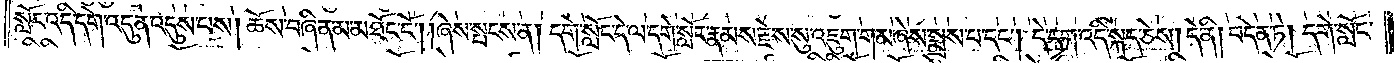སློང་འདི་དགེ་འདུན་འདུས་པས། ཆོས་བཞིན་མ་མཐོང་ངོ༌། །ཞེས་སྤངས་ན། དགེ་སློང་དེ་ལ་དགེ་སློང་རྣམས་རྗེས་སུ་འཇུག་གམ་ཞེས་སྨྲས་པ་དང༌། དེ་དག་འདི་སྐད་ཅེས། དེ་ནི། བདེན་ཏེ། དགེ་སློང་
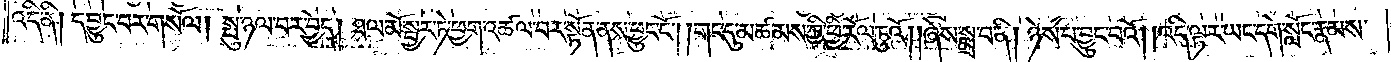འདི་ནི། དབྱུང་བར་གསོལ། སྤུ་ཉལ་བར་བྱེད། ཐལ་མོ་སྦྱར་ཏེ་ཕྱག་འཚལ་བར་སྟོན་ནས་ཕྱུང་ངོ༌། །གང་དུ་མཚམས་ཀྱི་ཕྱི་རོལ་ཏུའོ། །ཞེས་སྨྲ་བ་ནི། ཉེས་པ་བྱུང་བའོ། །འདི་ལྟར་ཡང་དགེ་སློང་རྣམས་
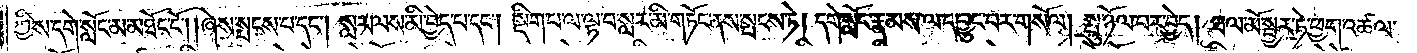ཀྱིས་དགེ་སློང་མ་མཐོང་ངོ༌། །ཞེས་སྤངས་པ་དང༌། སླར་ལས་མི་བྱེད་པ་དང༌། སྡིག་པ་ལ་ལྟ་བ་སླར་མི་གཏོང་ནས་སྤངས་ཏེ། དགེ་སློང་རྣམས་ལ་དབྱུང་བར་གསོལ། སྤུ་ཉོལ་བར་བྱེད། ཐལ་མོ་སྦྱར་ཏེ་ཕྱག་འཚལ་
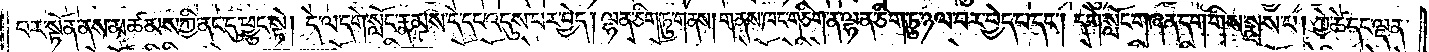བར་སྟོན་ནས་མཚམས་ཀྱི་ནང་དུ་ཕྱུང་སྟེ། དེ་ལ་དགེ་སློང་རྣམས་དེ་དང་འདུས་པར་བྱེད། ལྷན་ཅིག་ཏུ་གནས། གནས་ཁང་གཅིག་ན་ལྷན་ཅིག་ཏུ་ཉལ་བར་བྱེད་པ་དང༌། དགེ་སློང་གཞན་དག་གིས་སྨྲས་པ། ཀྱེ་ཚེ་དང་ལྡན་
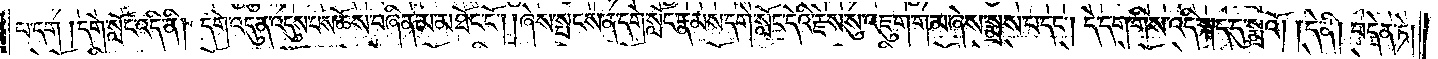པ་དག །དགེ་སློང་འདི་ནི། དགེ་འདུན་འདུས་པས་ཆོས་བཞིན་མ་མཐོང་ངོ༌། །ཞེས་སྤངས་ན་དགེ་སློང་རྣམས་དགེ་སློང་དེའི་རྗེས་སུ་འཇུག་གམ་ཞེས་སྨྲས་པ་དང༌། དེ་དག་གིས་འདི་སྐད་དུ་སྨྲའོ། །དེ་ནི། བདེན་ཏེ།
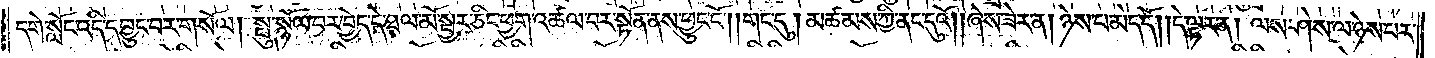དགེ་སློང་འདི་དབྱུང་བར་གསོལ། སྤུ་སྙོལ་བར་བྱེད་དེ་ཐལ་མོ་སྦྱར་ཅིང་ཕྱག་འཚལ་བར་སྟོན་ནས་ཕྱུང་ངོ༌། །གང་དུ། མཚམས་ཀྱི་ནང་དུའོ། །ཞེས་ཟེར་ན། ཉེས་པ་མེད་དོ། །དེ་ལྟར་ན། ལས་ཤེས་ལ་ཉེས་པར་
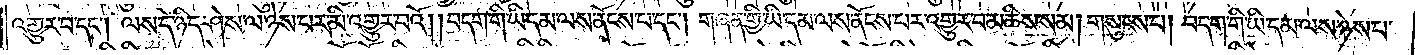འགྱུར་པ་དང༌། ལས་དེ་ཉིད་ཤེས་ལ་ཉེས་པར་མི་འགྱུར་བའོ། །བདག་གི་ཡི་དམ་ལས་ནོངས་པ་དང༌། གཞན་གྱི་ཡི་དམ་ལས་ནོངས་པར་འགྱུར་བ་མཆིས་སམ། གསུངས་པ། བདག་གི་ཡི་དམ་ལས་ཉེས་པ་
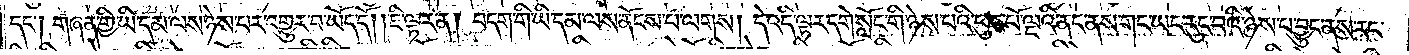དང༌། གཞན་གྱི་ཡི་དམ་ལས་ཉེས་པར་འགྱུར་པ་ཡོད་དོ། །ཇི་ལྟར་ན། བདག་གི་ཡི་དམ་ལས་ནོངས་པ་ལགས། དེ་འདི་ལྟར་དགེ་སློང་གི་ཉེས་པའི་ཕུང་པོ་ལྔའི་ནང་ནས་གང་ཡང་རུང་བའི་ཉེས་པ་བྱུང་ནས་རང་
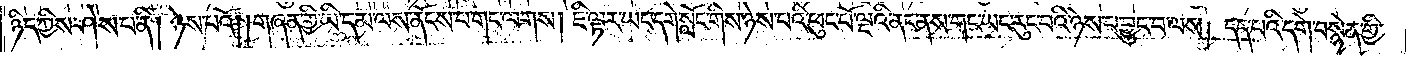ཉིད་ཀྱིས་ཤེས་པ་ནི། ཉེས་པའོ། །གཞན་གྱི་ཡི་དམ་ལས་ནོངས་པ་གང་ལགས། ཇི་ལྟར་ཡང་དགེ་སློང་གིས་ཉེས་པའི་ཕུང་པོ་ལྔའི་ནང་ནས་གང་ཡང་རུང་བའི་ཉེས་པ་བྱུང་བ་ལས། དད་པའི་དགེ་བསྙེན་གྱི་
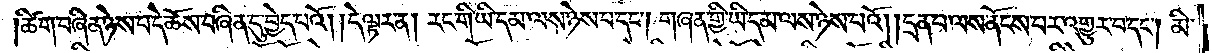ཚིག་བཞིན་ཉེས་པ་དེ་ཆོས་བཞིན་དུ་བྱེད་པའོ། །དེ་ལྟར་ན། རང་གི་ཡི་དམ་ལས་ཉེས་པ་དང༌། གཞན་གྱི་ཡི་དམ་ལས་ཉེས་པའོ། །དྲན་པ་ལས་ནོངས་པར་འགྱུར་བ་དང༌། མི་
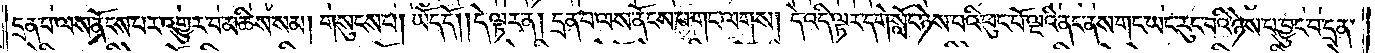དྲན་པ་ལས་ནོངས་པར་འགྱུར་བ་མཆིས་སམ། གསུངས་པ། ཡོད་དེ། །དེ་ལྟར་ན། དྲན་བ་ལས་ནོངས་པ་གང་ལགས། དེ་འདི་ལྟར་དགེ་སློང་ཉེས་པའི་ཕུང་པོ་ལྔའི་ནང་ནས་གང་ཡང་རུང་བའི་ཉེས་པ་བྱུང་བ་དྲན་
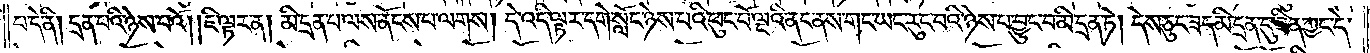པ་དེ་ནི། དྲན་པའི་ཉེས་པའོ། །ཇི་ལྟར་ན། མི་དྲན་པ་ལས་ནོངས་པ་ལགས། དེ་འདི་ལྟར་དགེ་སློང་ཉེས་པའི་ཕུང་པོ་ལྔའི་ནང་ནས་གང་ཡང་རུང་བའི་ཉེས་པ་བྱུང་བ་མི་དྲན་ཏེ། དེས་ཅུང་ཟད་མི་དྲན་དུ་ཟིན་ཀྱང་དེ་
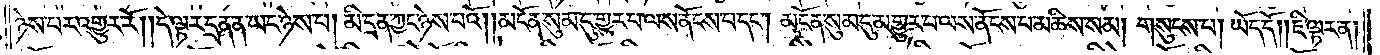ཉེས་པར་འགྱུར་རོ། །དེ་ལྟར་དྲན་ན་ཡང་ཉེས་པ། མི་དྲན་ཀྱང་ཉེས་པའོ། །མངོན་སུམ་དུ་གྱུར་པ་ལས་ནོངས་པ་དང༌། མངོན་སུམ་དུ་མ་གྱུར་པ་ལས་ནོངས་པ་མཆིས་སམ། གསུངས་པ། ཡོད་དོ། །ཇི་ལྟར་ན།
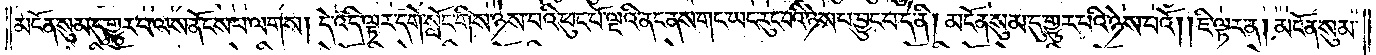མངོན་སུམ་དུ་གྱུར་པ་ལས་ནོངས་པ་ལགས། དེ་འདི་ལྟར་དགེ་སློང་གིས་ཉེས་པའི་ཕུང་པོ་ལྔའི་ནང་ནས་གང་ཡང་རུང་བའི་ཉེས་པ་བྱུང་བ་དེ་ནི། མངོན་སུམ་དུ་གྱུར་པའི་ཉེས་པའོ། །ཇི་ལྟར་ན། མངོན་སུམ་
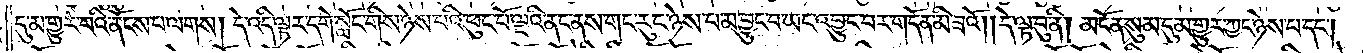དུ་མ་གྱུར་པའི་ནོངས་པ་ལགས། དེ་འདི་ལྟར་དགེ་སློང་གིས་ཉེས་པའི་ཕུང་པོ་ལྔའི་ནང་ནས་གང་རུང་ཉེས་པ་མ་བྱུང་བ་ཡང་འབྱུང་བར་གདོན་མི་ཟའོ། །དེ་ལྟ་བུ་ནི། མངོན་སུམ་དུ་མ་གྱུར་ཀྱང་ཉེས་པ་དང༌།
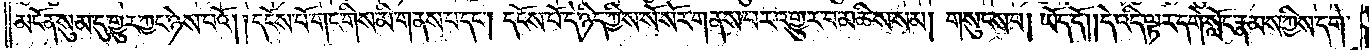མངོན་སུམ་དུ་གྱུར་ཀྱང་ཉེས་པའོ། །དངོས་པོ་གང་གིས་མི་གནས་པ་དང༌། དངོས་པོ་དེ་ཉིད་ཀྱིས་སོ་སོར་གནས་པར་འགྱུར་བ་མཆིས་སམ། གསུངས་པ། ཡོད་དོ། །དེ་འདི་ལྟར་དགེ་སློང་རྣམས་ཀྱིས་དགེ་
